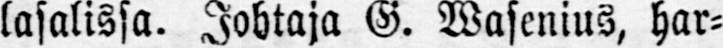lasalissa. Johtaja G. Wasenius, har-
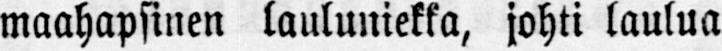maahapsinen lauluniekka, johti laulua
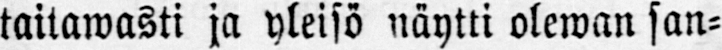taitawasti ja yleisö näytti olewan san-
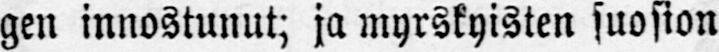gen innostunut; ja myrskyisten suosion
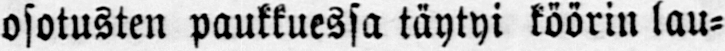osotusten paukkuessa täytyi köörin lau-
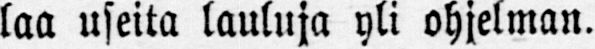laa useita lauluja yli ohjelman.
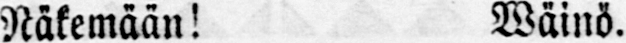Näkemään! Wäinö.
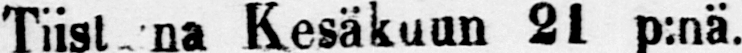Tiistaina Kesäkuun p:nä
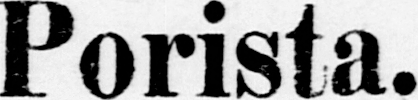Porista.
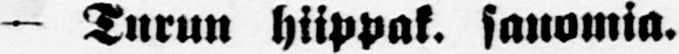— Turun hiippak. sanomia.
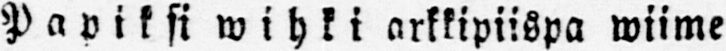Papiksi wihki arkkipiispa wiime
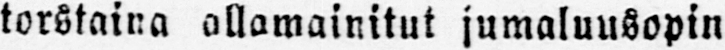torstaina allamainitut jumaluusopin
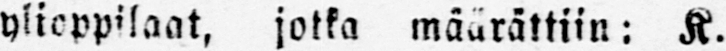ylioppilaat, jotka määrättiin: K.
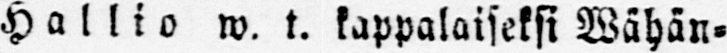Halkio w. t. kappalaiseksi Wähän-
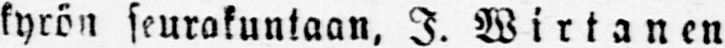kyrön seurakuntaan. I. Wirtanen
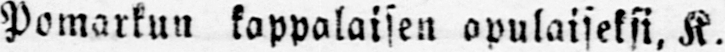Pomarkun kappalaisen apulaiseksi, K.
